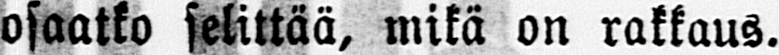osaatko selittää, mikä on rakkaus.
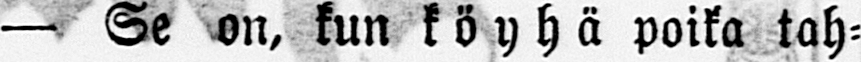— Se on, kun köyhä poika tah-
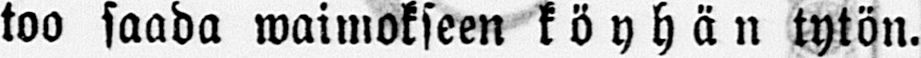too saada waimokseen köyhän tytön.
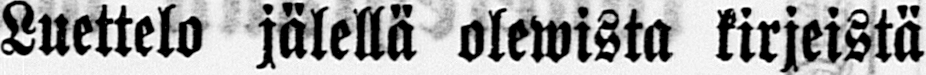Luettelo jälellä olewista kirjeistä
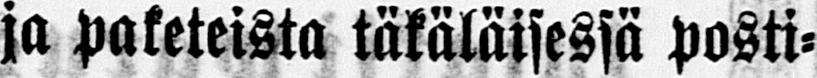ja paketeista täkäläisessä posti-
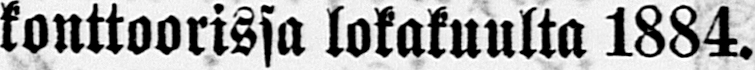konttorissa lokakuulta 1884.
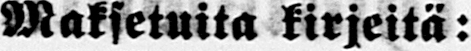Maksetuita kirjeitä:
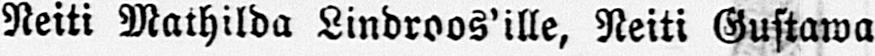Neiti Mathilda Lindroos'ille, Neiti Gustawa
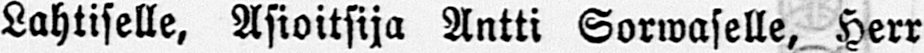Lahtiselle, Asioitsija Antti Sorwaselle, Herr
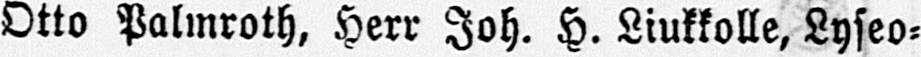Otto Palmroth, Herr Joh. H. Liukkolle, Lyseo-
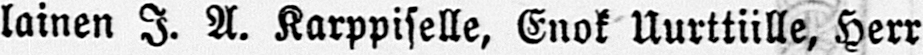lainen J. A. Karppiselle, Enok Uurttiille, Herr
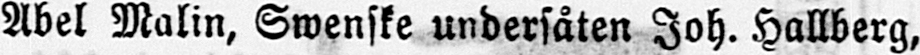Abel Malin, Swenske undersåten Joh. Hallberg,
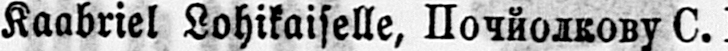Kaabriel Lohikaiselle, Почйолкову C. B. Mаксу-
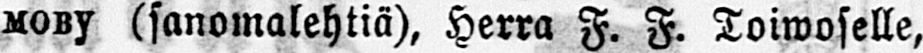мoву (sanomalehtiä), Herra F. F. Toiwoselle,
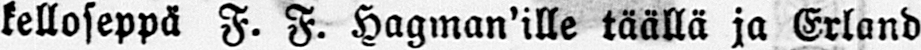kelloseppä F. F. Hagman'ille täällä ja Erland
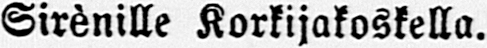Sirènille Korkijakoskella.
